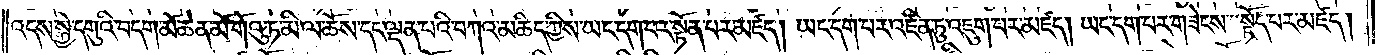འདས་སྐྱེ་དགུའི་བདག་མོ་ཆེན་མོ་གོའུ་ཏ་མི་ལ་ཆོས་དང་ལྡན་པའི་བཀའ་མཆིད་ཀྱིས་ཡང་དག་པར་སྟོན་པར་མཛད། ཡང་དག་པར་འཛིན་ཏུ་འཇུག་པར་མཛད། ཡང་དག་པར་གཟེངས་སྟོད་པར་མཛད།
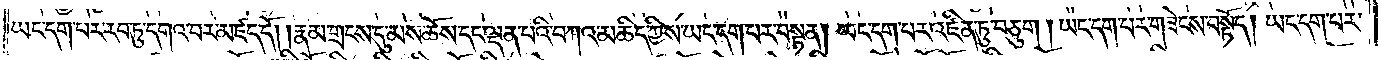ཡང་དག་པར་རབ་ཏུ་དགའ་བར་མཛད་དོ། །རྣམ་གྲངས་དུ་མས་ཆོས་དང་ལྡན་པའི་བཀའ་མཆིད་ཀྱིས་ཡང་དག་པར་བསྟན། ཡང་དག་པར་འཛིན་ཏུ་བཅུག །ཡང་དག་པར་གཟེངས་བསྟོད། ཡང་དག་པར་
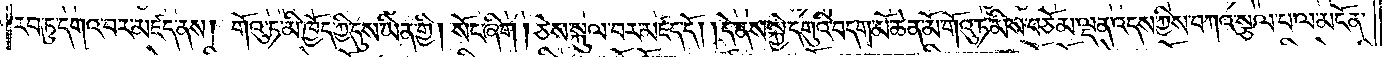རབ་ཏུ་དགའ་བར་མཛད་ནས། གོའུ་ཏ་མི་ཁྱོད་ཀྱི་དུས་ཡིན་གྱི། སོང་ཞིག །ཅེས་སྐུལ་བར་མཛད་དོ། །དེ་ནས་སྐྱེ་དགུའི་བདག་མོ་ཆེན་མོ་གོའུ་ཏ་མིས་བཅོམ་ལྡན་འདས་ཀྱིས་བཀའ་སྩལ་པ་ལ་མངོན་
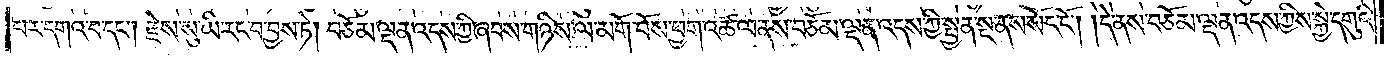པར་དགའ་བ་དང༌། རྗེས་སུ་ཡི་རང་བ་བྱས་ཏེ། བཅོམ་ལྡན་འདས་ཀྱི་ཞབས་གཉིས་ལ་མགོ་བོས་ཕྱག་འཚལ་ནས་བཅོམ་ལྡན་འདས་ཀྱི་སྤྱན་སྔ་ནས་སོང་ངོ༌། །དེ་ནས་བཅོམ་ལྡན་འདས་ཀྱིས་སྐྱེ་དགུའི་
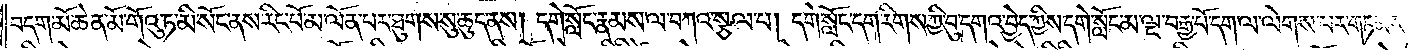བདག་མོ་ཆེན་མོ་གོའུ་ཏ་མི་སོང་ནས་རིང་པོ་མ་ལོན་པར་ཐུགས་སུ་ཆུད་ནས། དགེ་སློང་རྣམས་ལ་བཀའ་སྩལ་པ། དགེ་སློང་དག་རིགས་ཀྱི་བུ་དགའ་བྱེད་ཀྱིས་དགེ་སློང་མ་ལྔ་བརྒྱ་པོ་དག་ལ་ལེགས་པར་གཏམས་
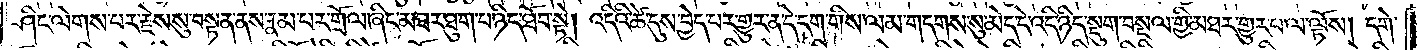ཤིང་ལེགས་པར་རྗེས་སུ་བསྟན་ནས་རྣམ་པར་གྲོལ་ཞིང་མཐར་ཐུག་པ་ཉིད་ཐོབ་སྟེ། འདིའི་ཚེ་དུས་བྱེད་པར་གྱུར་ན་དེ་དག་གིས་ལམ་གདགས་སུ་མེད་དེ་འདི་ཉིད་སྡུག་བསྔལ་གྱི་མཐར་གྱུར་པ་ལ་ལྟོས། དགེ་
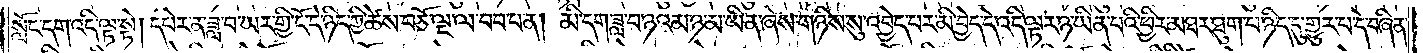སློང་དག་འདི་ལྟ་སྟེ། དཔེར་ན་ཟླ་བ་ཡར་གྱི་ངོ་དེ་ཉིད་ཀྱི་ཚེས་བཅོ་ལྔ་ལ་བབ་པ་ན། མི་དག་ཟླ་བ་ཉའམ་ཉ་མ་ཡིན་ཞེས་གཉིས་སུ་འབྱེད་པར་མི་བྱེད་དེ་འདི་ལྟར་ཉ་ཡིན་པའི་ཕྱིར་མཐར་ཐུག་པ་ཉིད་དུ་གྱུར་པ་དེ་བཞིན་
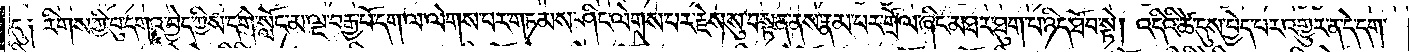དུ༑  རིགས་ཀྱི་བུ་དགའ་བྱེད་ཀྱིས་དགེ་སློང་མ་ལྔ་བརྒྱ་པོ་དག་ལ་ལེགས་པར་གཏམས་ཤིང་ལེགས་པར་རྗེས་སུ་བསྟན་ནས་རྣམ་པར་གྲོལ་ཞིང་མཐར་ཐུག་པ་ཉིད་ཐོབ་སྟེ། འདིའི་ཚེ་དུས་བྱེད་པར་འགྱུར་ན་དེ་དག་
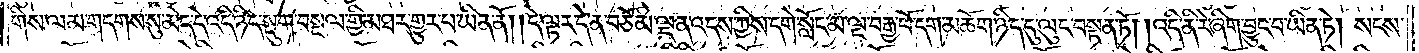གིས་ལམ་གདགས་སུ་མེད་དེ་འདི་ཉིད་སྡུག་བསྔལ་གྱི་མཐར་གྱུར་པ་ཡིན་ནོ། །དེ་ལྟར་དེ་ན་བཅོམ་ལྡན་འདས་ཀྱིས་དགེ་སློང་མ་ལྔ་བརྒྱ་པོ་དག་མཆོག་ཉིད་དུ་ལུང་བསྟན་ཏོ། །འདི་ནི་རེ་ཞིག་བྱུང་བ་ཡིན་ཏེ། སངས་
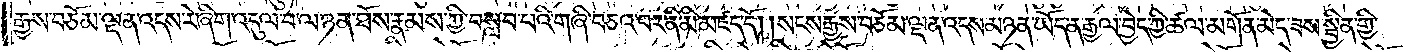རྒྱས་བཅོམ་ལྡན་འདས་རེ་ཞིག་འདུལ་བ་ལ་ཉན་ཐོས་རྣམས་ཀྱི་བསླབ་པའི་གཞི་བཅའ་བར་ནི་མི་མཛད་དོ། །སངས་རྒྱས་བཅོམ་ལྡན་འདས་མཉན་ཡོད་ན་རྒྱལ་བྱེད་ཀྱི་ཚལ་མགོན་མེད་ཟས་སྦྱིན་གྱི་
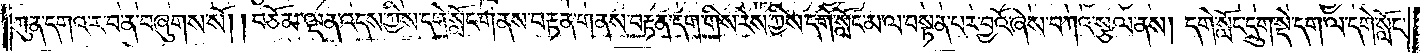ཀུན་དགའ་ར་བ་ན་བཞུགས་སོ། །བཅོམ་ལྡན་འདས་ཀྱིས་དགེ་སློང་གནས་བརྟན་གནས་བརྟན་དག་གིས་རེས་ཀྱིས་དགེ་སློང་མ་ལ་བསྟན་པར་བྱའོ་ཞེས་བཀའ་སྩལ་ནས། དགེ་སློང་དྲུག་སྡེ་དག་ལ་དགེ་སློང་
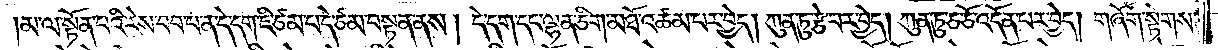མ་ལ་སྟོན་པའི་རེས་བབ་པ་ན་དེ་དག་ཇི་ཙམ་པ་དེ་ཙམ་བསྟན་ནས། དེ་དག་དང་ལྷན་ཅིག་མཐོ་འཚམ་པར་བྱེད། ཀུན་ཏུ་རྩེ་བར་བྱེད། ཀུན་ཏུ་ཅ་ཅོ་འདོན་པར་བྱེད། གཞོག་སྟེགས་
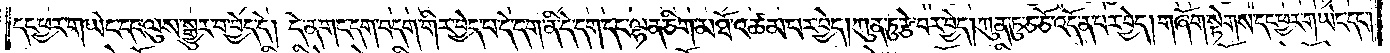དང་ཕྱར་གཡེང་དང་ལུས་སྒྱུར་བ་བྱེད་དེ། དེ་ན་གང་དག་བདག་གིར་བྱེད་པ་དེ་དག་ནི་དེ་དག་དང་ལྷན་ཅིག་མཐོ་འཚམ་པར་བྱེད།ཀུན་ཏུ་རྩེ་བར་བྱེད། ཀུན་ཏུ་ཅ་ཅོ་འདོན་པར་བྱེད། གཞོག་སྟེགས་དང་ཕྱར་གཡེང་དང༌།
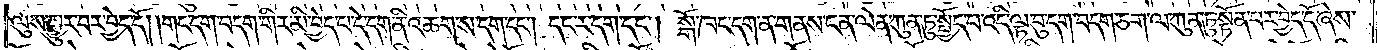ལུས་སྒྱུར་བར་བྱེད་དོ། །གང་དག་བདག་གིར་མི་བྱེད་པ་དེ་དག་ནི་འཆག་ས་དག་དང༌། དང་ར་དག་དང༌། སྒོ་ཁང་དག་ན་གནས་ངན་ལེན་ཀུན་ཏུ་སྤྱོད་པ་འདི་ལྟ་བུ་དག་བདག་ཅག་ལ་ཀུན་ཏུ་སྟོན་པར་བྱེད་དོ་ཞེས་
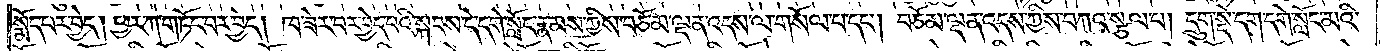སྨོད་པར་བྱེད། ཕྱར་ཀ་གཏོང་བར་བྱེད། ཁ་ཟེར་བར་བྱེད་པའི་སྐབས་དེ་དགེ་སློང་རྣམས་ཀྱིས་བཅོམ་ལྡན་འདས་ལ་གསོལ་པ་དང༌། བཅོམ་ལྡན་འདས་ཀྱིས་བཀའ་སྩལ་པ། དྲུག་སྡེ་དག་དགེ་སློང་མའི་
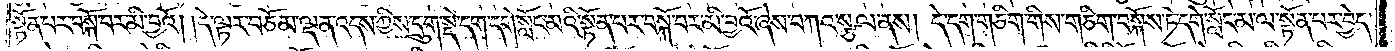སྟོན་པར་བསྐོ་བར་མི་བྱའོ། །དེ་ལྟར་བཅོམ་ལྡན་འདས་ཀྱིས་དྲུག་སྡེ་དག་དགེ་སློང་མའི་སྟོན་པར་བསྐོ་བར་མི་བྱའོ་ཞེས་བཀའ་སྩལ་ནས། དེ་དག་གཅིག་གིས་གཅིག་བསྐོས་ཏེ་དགེ་སློང་མ་ལ་སྟོན་པར་བྱེད་
